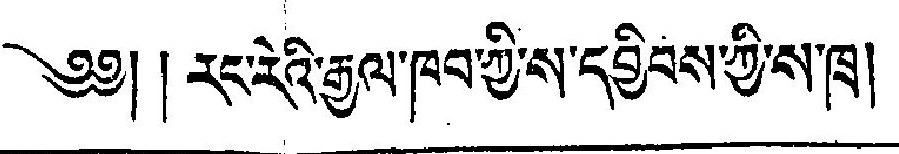༄༅། རང་རེའི་རྒྱལ་ཁབ་ཀྱི་ས་དབྱིབས་ཀྱི་ས་ཁྲ།
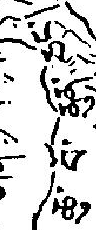ཆུ་བོ་ནུན་ཅང་།
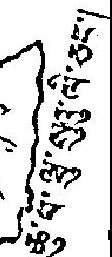ཆུ་བོ་ཝུ་སུའུ་ལི་ཅང་།
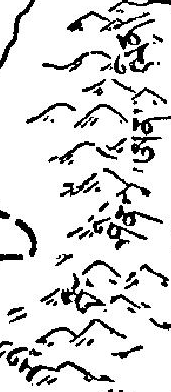རི་བོ་ཤིན་ཨན་ལིན།
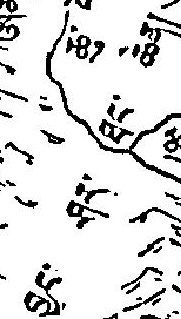བྱང་ཤར་ཐང་ཆེན།
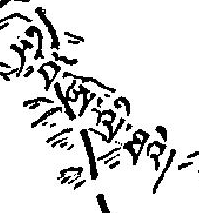རི་བོ་ཨ་ལི་ཐའེ།
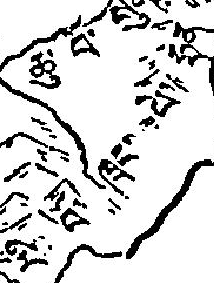རི་བོ་ཁྲང་པེ་ཧྲན།
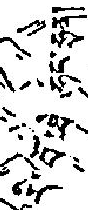རི་བོ་ཐེ་ཧང་ཧྲན།
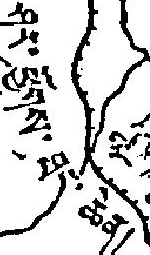ཤར་ཕྱོགས་ཐང་ཆེན།
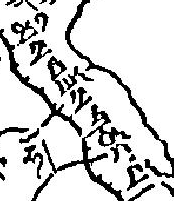མིས་བཟོས་གཙང་པོ།
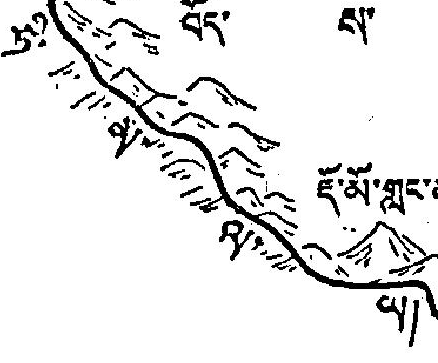ཧི་མ་ལ་ཡ།
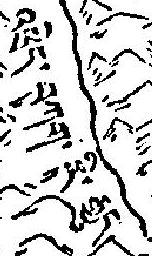འཕྲེད་བཀག་རི་རྒྱུད།
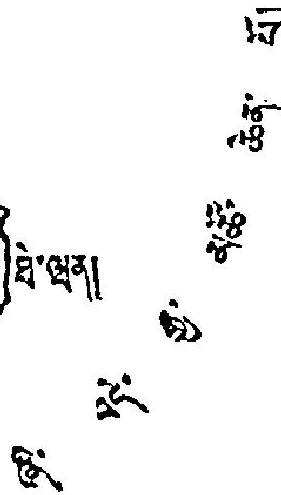ཞི་བདེ་རྒྱ་མཚོ་ཆེན་པོ།
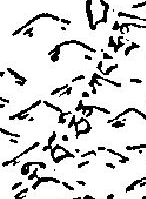རི་བོ་ཅིན་ཀང་ཧྲན།
